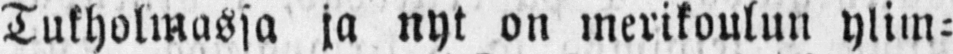Tukholmassa ja nyt on merikoulun ylim-
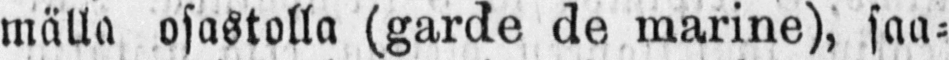mälla osastolla (garde de marine), saa-
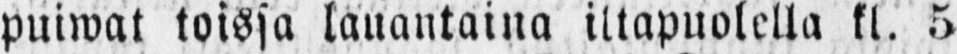puiwat toissa lauantaina iltapuolella kl. 5
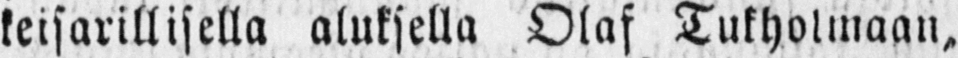keisarillisella aluksella Olaf Tukholmaan,
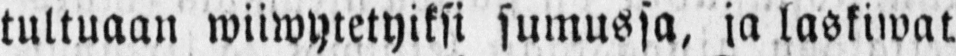tultuaan wiiwytetyiksi sumussa, ja laskiwat
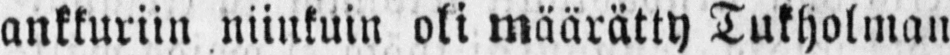ankkuriin niinkuin oli määrätty Tukholman
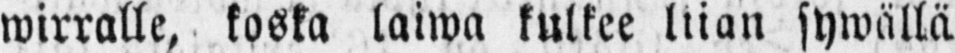wirralle, koska laiwa kulkee liian sywällä
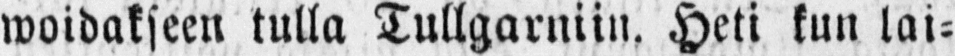woidakseen tulla Tullgarniin. Heti kun lai-
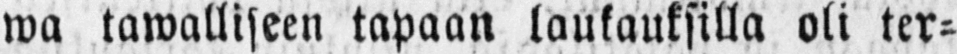wa tawalliseen tapaan laukauksilla oli ter-
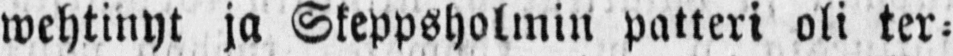wehtinyt ja Skeppsholmin patteri oli ter-
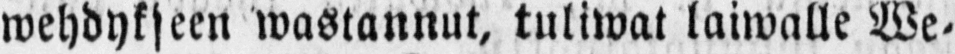wehdykseen wastannut, tuliwat laiwalle We-
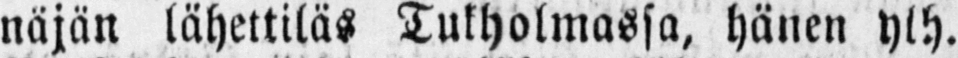näjän lähettiläs Tukholmassa, hänen ylh.
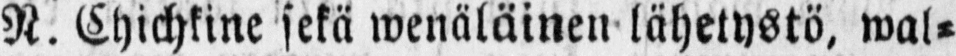N. Ehichkine sekä wenäläinen lähetystö, wal-
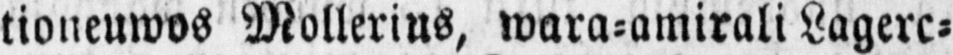tioneuwos Mollerius, wara-amirali Lagerc-
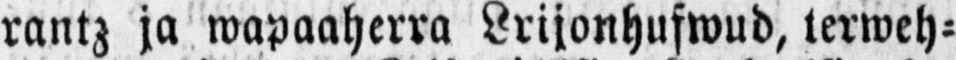rantz ja wapaaherra Lrijonhufwud, terweh-
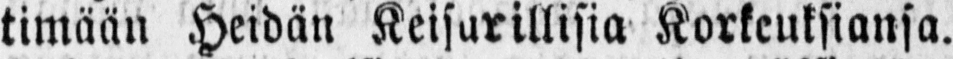timään Heidän Keisarillisia Korkeuksiansa.
